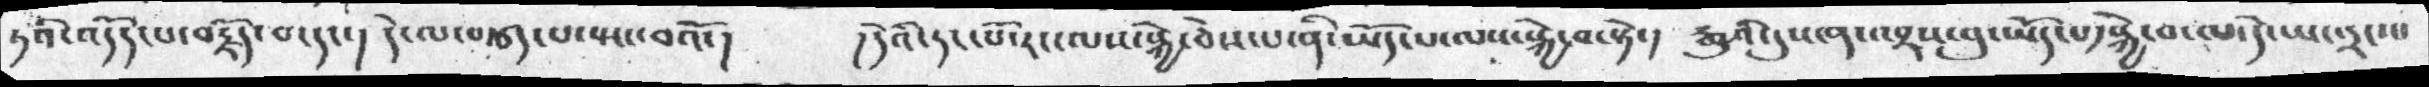ཏའི་འདོད་པ་བརྗོད་བ་དང་། དེ་ལ་བརྩད་པ་སྤང་བའོ་། །དེའི་དང་པོ་རང་ལས་སྐྱེ་ཅེས་པ་ནི་ཡོད་པ་ལས་སྐྱེ་བ་སྟེ་། རྒྱུའི་དུས་ན་འབྲས་བུ་ཡོད་པ་སྐྱེ་བ་ལ་དེ་ཡང་དྲང་པ
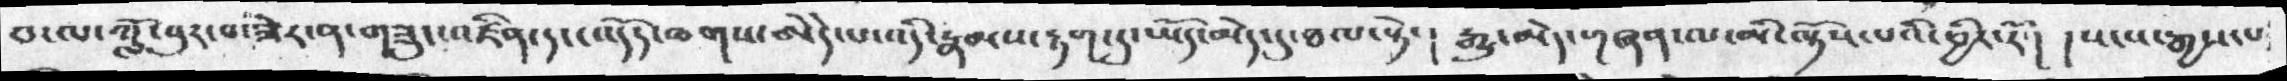བ་ལ་ཀློ་བུར་བ་ཟེར་ན་གཟུང་འཛིན་དང་འདོད་ཆགས་ཨེདེ་པ་འདི་རྣམས་རྟག་དུ་ཡོད་མེད་དུ་ཐལ་སྟེ་། རྒྱུ་མེད་གཞན་ལ་མི་ལྟོས་པའི་ཕྱིར་རོ་། །སངས་རྒྱས་པ
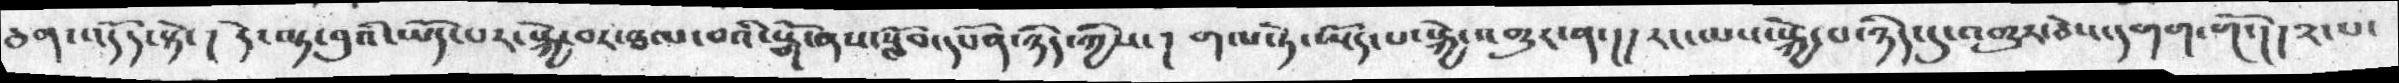ཅག་འདོད་སྟེ་།  དེ་ལྟ་བུའི་ཡོད་པར་སྐྱེ་བར་ཐལ་བའི་སྒོ་ནས་སློབ་དཔོན་ཉིད་ཀྱིས་།  གལ་ཏེ་ཡོད་པ་སྐྱེ་འགྱུར་ན་།།  རང་ལས་སྐྱེ་བ་ཉིད་དུ་འགྱུར་ཅེས་དགག་གོ་།།༢་པ་
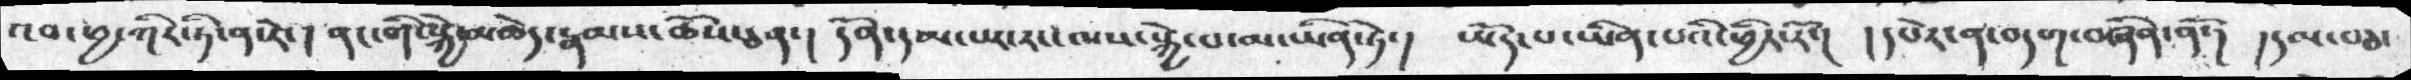འབ་ཕྱ་ཀིར་ཏི་ན་རེ་། ནང་གི་སྐྱེ་མཆེད་རྣམས་ཆོས་ཅན་།  དོན་དམ་པར་རང་ལས་སྐྱེ་པ་མ་ཡིན་ཏེ་།  ཡོད་པ་ཡིན་པའི་ཕྱིར་རོ་།  ། དཔེར་ན་བདག་བཞིན་ནོ་། ། དམ་བཅ་
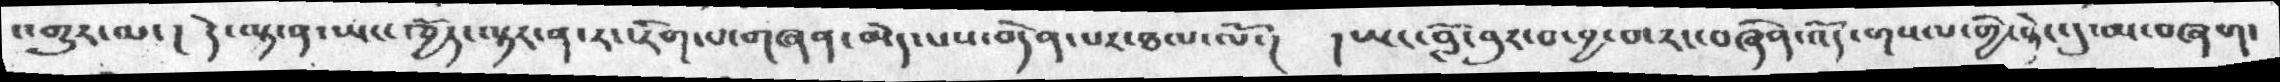འགྱུར་ལ་། དེ་ལྟ་ན་ཡང་ཁྱོད་ལྟར་ན་རང་རིག་པ་གཞན་མེད་པས་བདེན་པར་ཐལ་ལོ་། །ཡང་བློ་བུར་བ་བྱ་བ་རང་བཞིན་འོད་གསལ་གྱི་སྟེང་དུ་མ་བཞག་
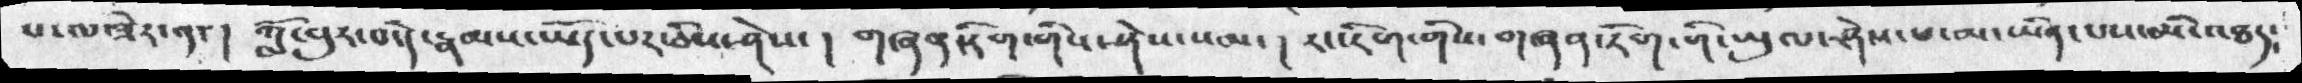པ་ལ་ཟེར་༡་། གློ་བུར་བ་དེ་རྣམས་ཡོད་པར་ཅིས་ཤེས་། གཞན་རིག་གིས་ཤེས་སམ་། རང་རིག་གིས་གཞན་རིག་གི་ཡུལ་ཤེས་པ་མ་ཡིན་པས་མི་འཐད་
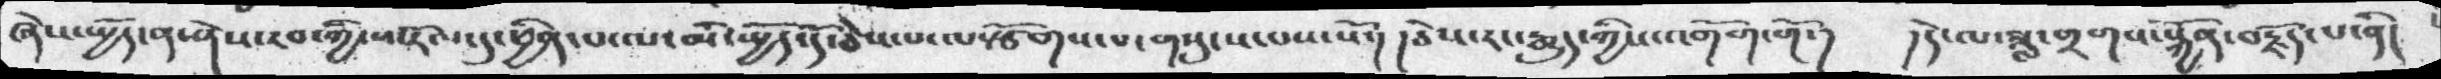ཞེས་སྤྱོད་ན་ཤེས་རབ་ཀྱི་ཕ་རོལ་དུ་ཕྱིན་པ་ལ་མི་སྤྱོད་དོ་ཅེས་པ་ལསྩོགས་པ་གསུངས་པས་སོ་།  །ཅེས་རང་རྒྱུད་ཀྱིས་འགོག་གོ་།  །དེ་ལ་ཟླ་གྲགས་སྐྱོན་བརྗོད་པ་ནི།
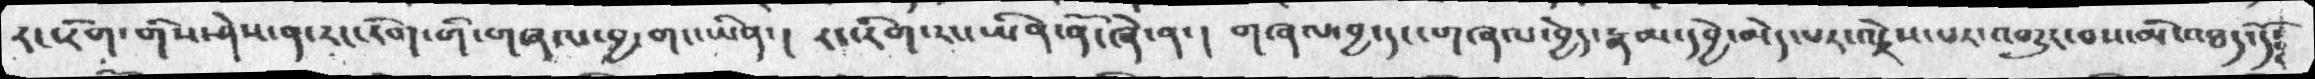རང་རིག་གིས་ཤེས་ན་རང་རིག་གི་གཞལ་བྱ་གང་ཡིན་།  རང་རིག་རང་ཡིན་ནོ་ཞེ་ན་།  གཞལ་བྱ་དང་གཞལ་བྱེད་རྣམ་དབྱེ་མེད་པར་འདྲེས་པར་འགྱུར་བས་མི་འཐད་དོ༴
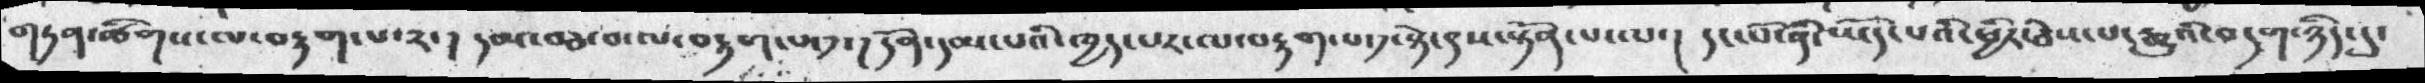གཏན་ཚིགས་ལ་བརྟག་པ་༢་།  དམ་བཅ་བ་ལ་བརྟག་པ་༡་། དོན་དམ་པའི་ཁྱད་པར་ལ་བརྟག་པ་༡་སྟེ་ཎས་སོན་པ་ལ་།  དང་པོ་ནི་ཡོད་པའི་ཕྱིར་ཅེས་པ་རྒྱུའི་བདག་ཉིད་དུ་
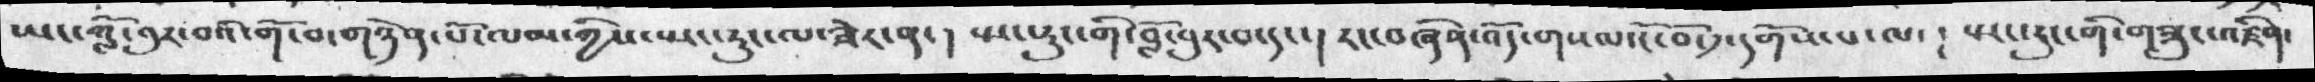ཡང་གློ་བུར་བའི་གོ་བ་གཉེན་པོ་ལམ་ཀྱིས་སྤང་རུང་ལ་ཟེར་ན་།  སྤང་རུང་གི་བློ་བུར་བ་དང་།  རང་བཞིན་འོད་གསལ་ངོ་བོ་༡་དགོས་པ་ལ་ ། སྤང་རུང་གི་གཟུང་འཛིན་
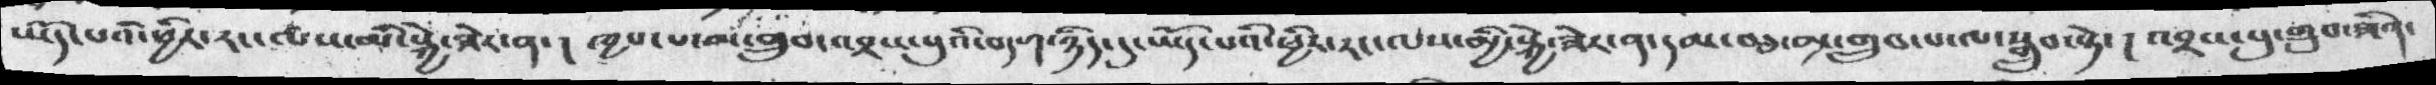ཡོད་པའི་ཕྱིར་རང་ལས་མི་སྐྱེ་ཟེར་ན་།  ཁྱབ་པ་མ་གྲུབ་འབྲས་བུའི་བདག་ཉིད་དུ་ཡོད་པའི་ཕྱིར་རང་ལས་མྱི་སྐྱེ་ཟེར་ན་དམ་བཅ་མ་གྲུབ་པ་ལ་སྒྲུབ་སྟེ་།  འབྲས་བུ་གྲུབ་ཟིན་
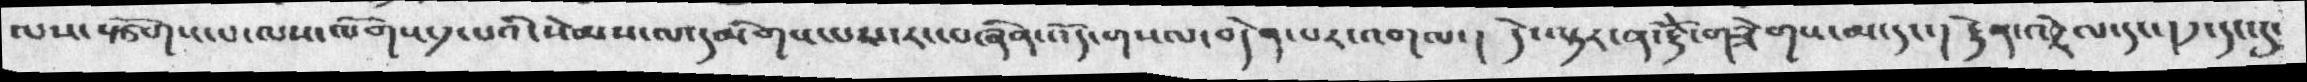ལས་སྩོགས་པ་ལས་ལོགས་༡་པའི་སེམས་ལ་དམིགས་པས་རང་བཞིན་འོད་གསལ་བདེན་པར་འགལ་། དེ་ལྟར་ན་རྡོེ་གཟེགས་མ་དང་། རྟེན་འབྲེལ་དང་། ༡་དང་དུ་
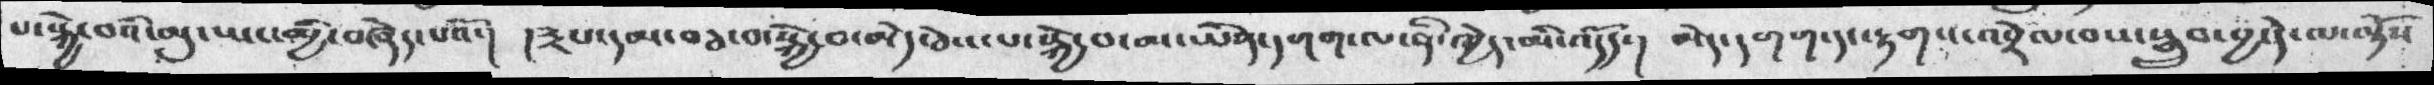པ་སྐྱེ་བའི་མུ་ཡང་མྱི་བཞེད་པའོ་། །༣པ་དམ་བཅ་བ་སྐྱེ་བ་མེད་ཅེས་པ་སྐྱེ་བ་མ་ཡིན་དགག་ལ་ནི་ཁྱེད་མི་འདོད་། མེད་དགག་དང་རྟགས་འབྲེལ་བས་སྒྲུབ་བྱ་དེ་ལ་ལྟོས
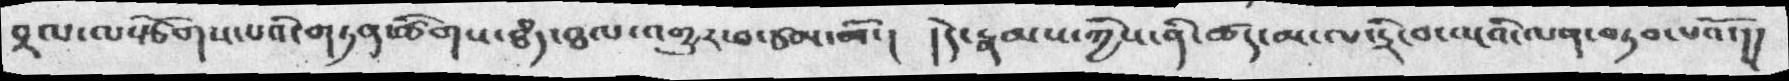བྲལ་ལ་སྩོགས་པའི་གཏན་ཚིགས་ཐཾད་ཐལ་འགྱུར་བ་ཙམ་མོ་། །དེ་རྣམས་ཀྱིས་ནི་ཚད་མ་ལ་དྲི་བ་ལྔའི་ལན་བཏབ་པའོ་།།
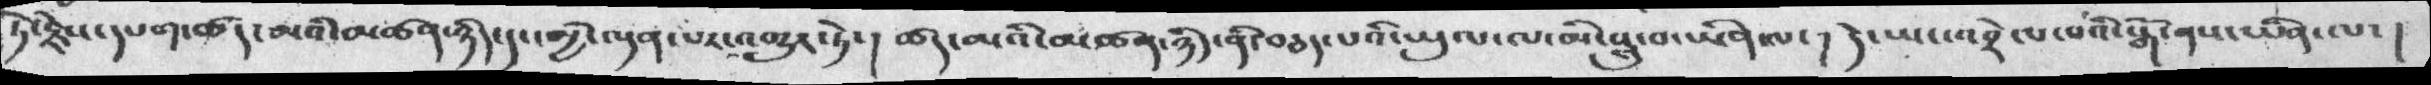ཏེ་རྗེས་དཔག་ཚད་མའི་མཚན་ཉིད་དང་མྱི་ལྡན་པར་འགྱུར་ཏེ་། ཚད་མའི་མཚན་ཉིད་ནི་བཅད་པའི་ཡུལ་ལ་མི་སླུ་བ་ཡིན་ལ་། དེ་ཡང་འབྲེལ་བའི་སྒོ་ནས་ཡིན་ལ་།
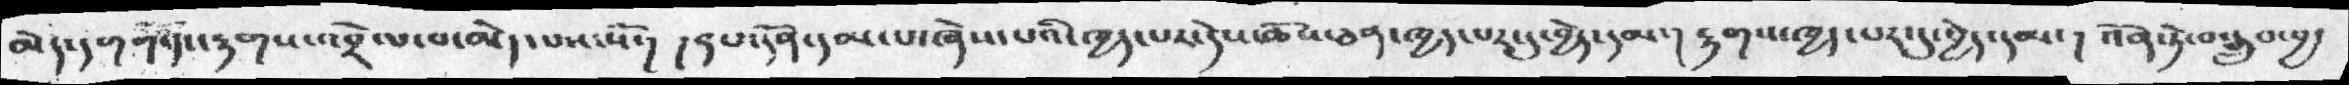མེད་དགག་དང་རྟགས་འབྲེལ་བ་མེད་པས་སོ་།  །དཔ་དོན་དམ་པ་ཞེས་པའི་ཁྱད་པར་དེས་ཆོས་ཅན་ཁྱད་པར་དུ་བྱེད་དམ་།  རྟགས་ཁྱད་པར་དུ་བྱེད་དམ་། འོན་ཏེ་བསྒྲུབ་བྱ་
